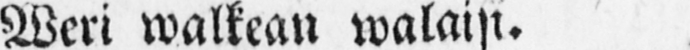Weri walkean walaisi.
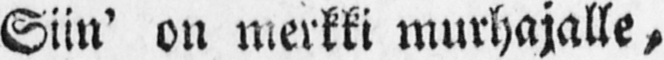Siin' on merkki murhajalle,
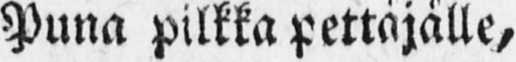Puna pilkkapettäjälle,
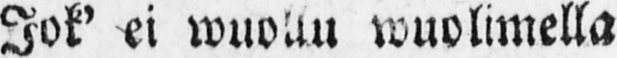Jok' ei wuollu wuolimella
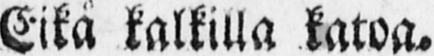Eiktä kalkilla katoa.
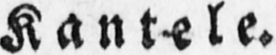K a n t e l e.
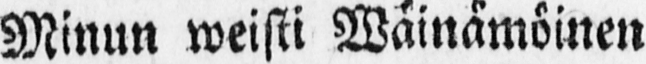Minun weisti Wäinämöinen
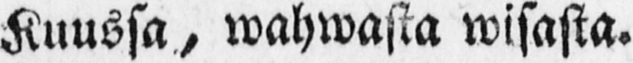Kuussa, wahwasta wisasta.
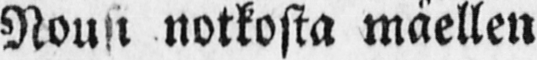Nousi notkosta mäellen
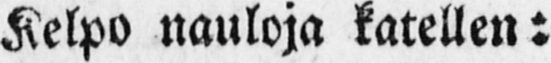Kelpo nauloja katellen:
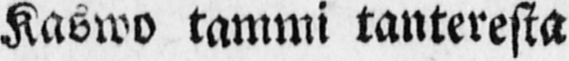Kaswo tammi tanteresta
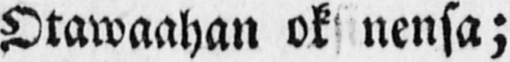Otawaahan oksinensa;
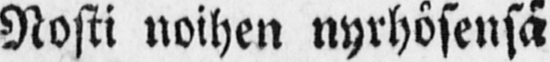Nosti noihen nyrhösensä
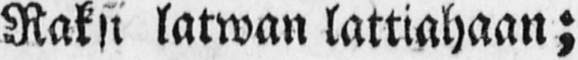Raksi latwan lattiahaan;
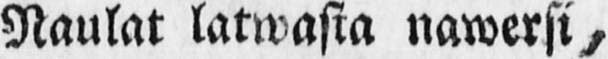Naulat latwasta nawersi,
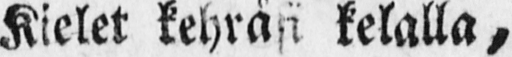Kielet kehräsi kelalla,
